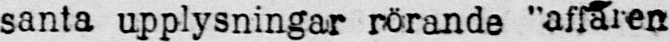santa upplysningar rörande "affären
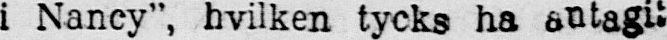i Nancy”, hvilken tycks ha antagit
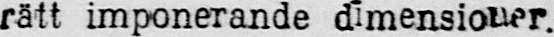rått imponerande dimensioner.
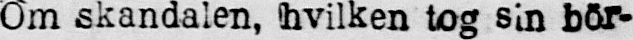Om skandalen, hvilken tog sin bör-
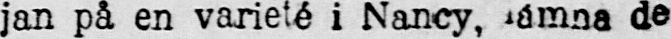jan på en varieté i Nancy, rämna de
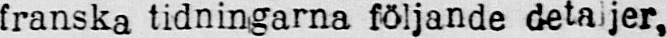franska tidningarna följande detaljer,
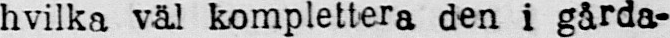hvilka väl komplettera den i gårda-
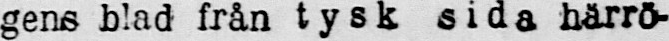gens blad från tysk sida härrö
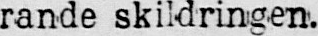rande skildringen.
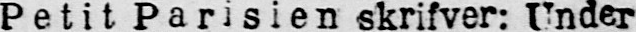Petit Parisien skrifver: Under
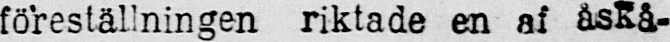föreställningen riktade en af åskå-
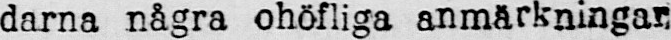darna några ohöfliga anmärkningar
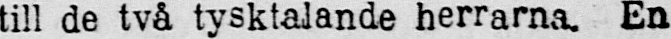till de två tysktalande herrarna. En
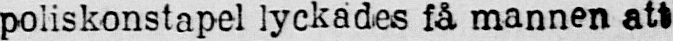poliskonstapel lyckades få mannen att
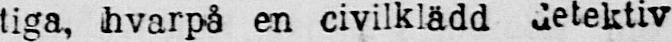tiga, hvarpå en civilklädd detektiv
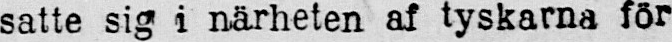satte sig i närheten af tyskarna för
